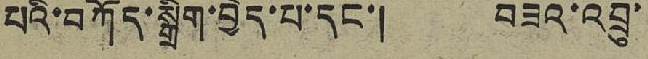པའི་བཀོད་སྒྲིག་བྱེད་པ་དང་། བཟའ་འབྲུ་
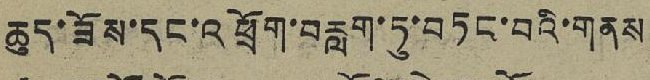ཆུད་ཟོས་དང་འཕྲོག་བརླག་ཏུ་བཏང་བའི་གནས
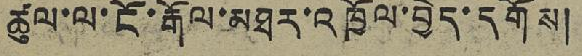ཚུལ་ལ་ངོ་རྒོ་མཐར་འཁྱོལ་བྱེད་དགོས།
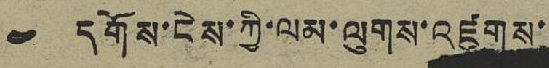༤ དགོས་ངེས་ཀྱི་ལམ་ལུགས་འཛུགས་
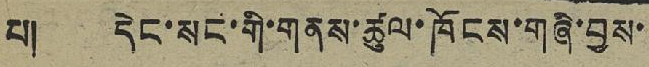པ། དེང་སང་གི་གནས་ཚུལ་ཁོངས་གཞི་བྱས་
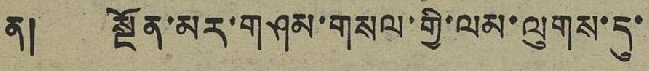ན། སྔོན་མར་གཤམ་གསལ་གྱི་ལམ་ལུགས་དུ་
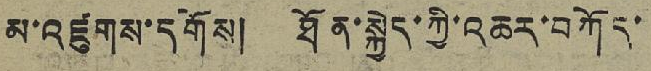མ་འཛུགས་དགོས། ཐོན་སྐྱེད་ཀྱི་འཆར་བཀོད་
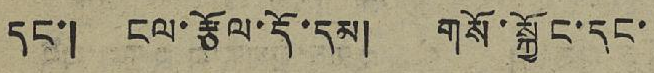དང་། ངལ་རྩོལ་དོ་དམ། གསོ་སྐྱོང་དང་
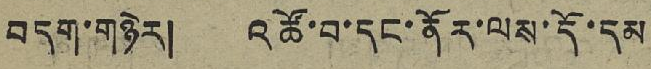བདག་གཉེར། འཚོ་བ་དང་ནོར་ལས་དོ་དམ
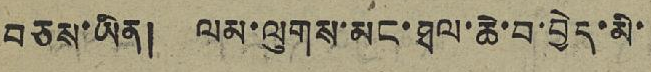བཅས་ཡིན། ལམ་ལུགས་མང་ཐལ་ཆེ་བ་བྱེད་མི་
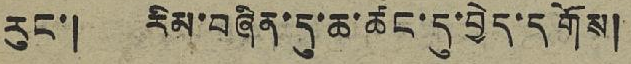རུང་། རིམ་བཞིན་དུ་ཆ་ཚང་དུ་བྱེད་དགོས།
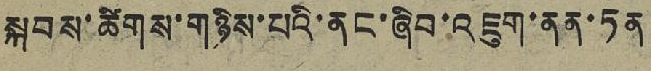སྐབས་ཚིགས་གཉིས་པའི་ནང་ཞིབ་འཇུག་ནན་ཏན
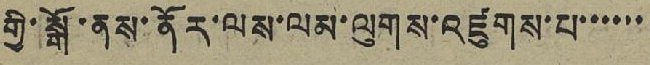གྱི་སྒོ་ནས་ནོར་ལས་ལམ་ལུགས་འཛུགས་པ་་་་་་
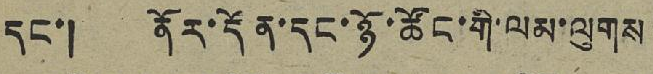དང་། ནོར་དོན་དང་ཉོ་ཚོང་གི་ལམ་ལུགས
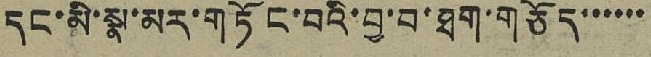དང་མི་སྣ་མར་གཏོང་བའི་བྱ་བ་ཐག་གཅོད་་་་་་
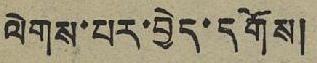ལེགས་པར་བྱེད་དོགས།
